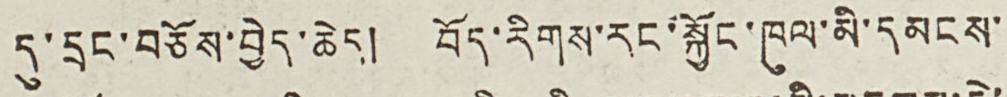དུ་དྲང་བཅོས་བྱེད་ཆེད། བོད་རིགས་རང་སྐྱོང་ཁུལ་མི་དམངས་
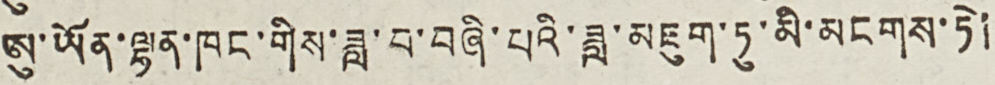ཨུ་ཡོན་ལྷན་ཁང་གིས་ཟླ་བ་བཞི་པའི་ཟླ་མཇུག་ཏུ་མི་མངགས་ཏེ།
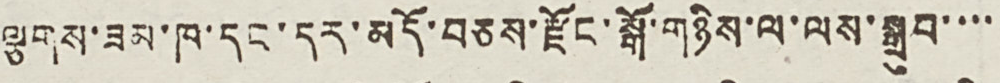ལྕགས་ཟམ་ཁ་དང་དར་མདོ་བཅས་རྫོང་སྒོ་གཉིས་ལ་ལས་སྒྲུབ་་་་
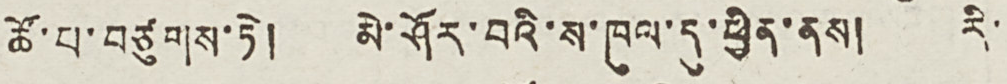ཚོ་བ་བཙུགས་ཏེ། མེ་ཤོར་བའི་ས་ཁུལ་དུ་ཕྱིན་ནས། རི་
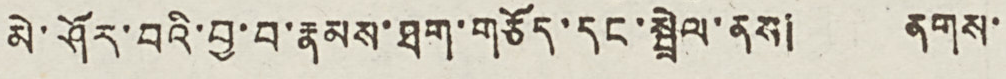མེ་ཤོར་བའི་བྱ་བ་རྣམས་ཐག་གཅོད་དང་སྦྲེལ་ནས། ནགས་
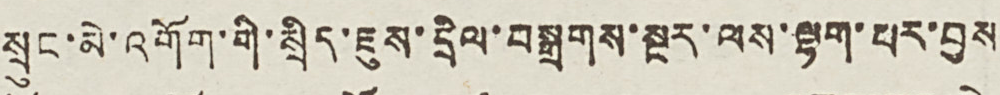སྲུང་མེ་འགོག་གི་སྲིད་ཇུས་དྲིལ་བསྒྲགས་སྔར་ལས་ལྷག་པར་བྱས
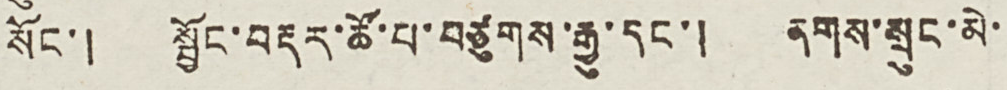སོང་། སྦྱོང་བརྡར་ཚོ་པ་བཙུགས་རྒྱུ་དང་། ནགས་སྲུང་མེ་
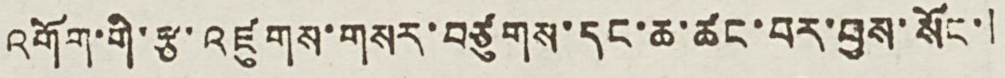འགོག་གི་རྩ་འཛུགས་གསར་བཙུགས་དང་ཆ་ཚང་བར་བྱས་སོང་།
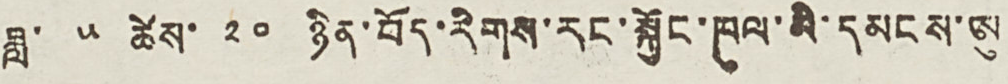ཟླ་ ༥ ཚེས་ ༢༠ ཉིན་བོད་རིགས་རང་སྐྱོང་ཁུལ་མི་དམངས་ཨུ
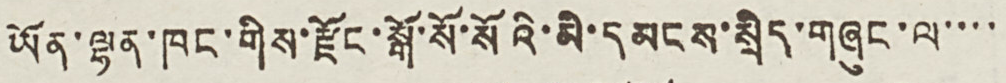ཡོན་ལྷན་ཁང་གིས་རྫོང་སྒོ་སོ་སོའི་མི་དམངས་སྲིད་གཞུང་ལ་་་་
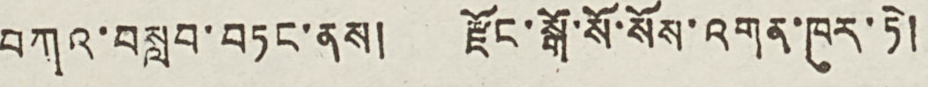བཀའ་བསླབ་བཏང་ནས། རྫོང་སྒོ་སོ་སོས་འགན་ཁུར་ཏེ།
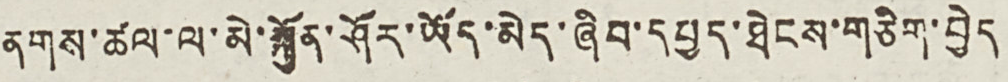ནགས་ཚལ་ལ་མེ་སྐྱོན་ཤོར་ཡོད་མེད་ཞིབ་དཔྱད་ཐེངས་གཅིག་བྱེད
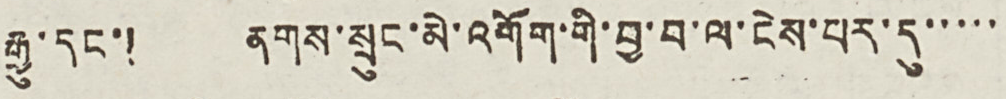རྒྱུ་དང་། ནགས་སྲུང་མེ་འགོག་གི་བྱ་བ་ལ་ངེས་པར་དུ་་་་་
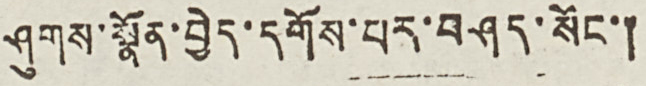ཤུགས་སྣོན་བྱེད་དགོས་པར་བཤད་སོང་།
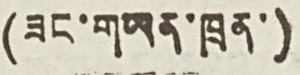(ཟང་གཡན་ཁྲན་)
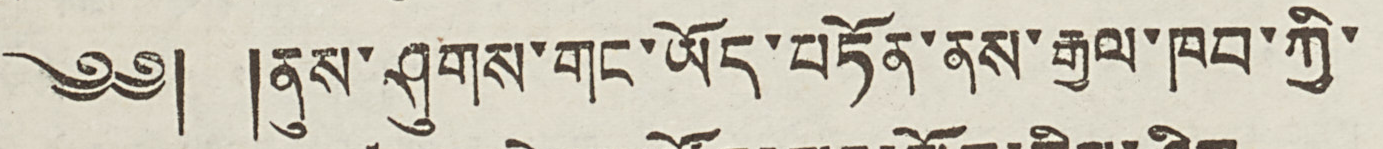༄༅། །ནུས་ཤུགས་གང་ཡོད་བཏོན་ནས་རྒྱལ་ཁབ་ཀྱི་
